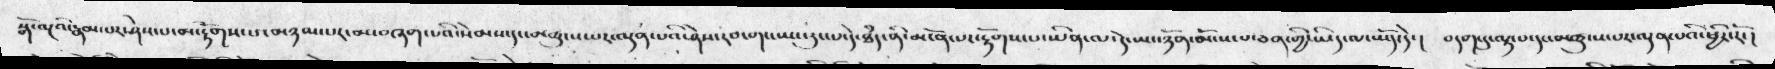སྒོ་ལྔའི་རྣམ་པར་ཤེས་པ་མ་རྟོགས་པ་མཉམ་པར་མ་བཞག་པའི་སེམས་དང་མཚུངས་པར་ལྡན་པའི་ཤེས་རབ་གང་ཡང་རུང་པ་དེ་ཐཾད་ནི་མངོན་པར་རྟོགས་པ་ཡིན་ལ་དེ་ཡང་ཉོན་མོངས་པ་ཅན་གྱི་ཡིད་ལ་ཡོད་དེ་།  བདག་དུ་ལྟ་བ་དང་མཚུངས་པར་ལྡན་པའི་ཕྱིར་རོ་།
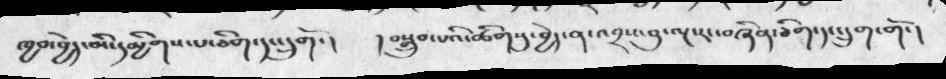ཁྱབ་བྱེད་མི་དམྱིགས་པ་ཅིག་དང་དྲུགོ་།  ། བསྒྲུབ་པའི་ཚོགསུ་བྱེད་ན་འབྲས་བུ་ལྔ་རང་བཞིན་ཅིག་དང་དྲུག་གོ་།
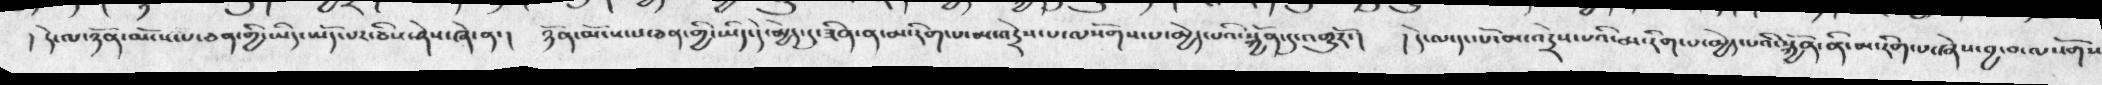། དེ་ལ་ཉོན་མོངས་པ་ཅན་གྱི་ཡིད་ཡོད་པར་ཅིས་ཤེས་ཞེ་ན་།  ཉོན་མོངས་པ་ཅན་གྱི་ཡིད་དེ་མྱེད་དུ་ཟིན་ན་མ་རིག་པ་མ་འདྲེས་པ་ལསོགས་པ་མྱེད་པའི་སྐྱོན་དུ་འགྱུརོ་།  ། དེ་ལ་དང་པོ་མ་འདྲེས་པའི་མ་རིག་པ་མྱེད་པའི་སྐྱོན་ནི་མ་རིག་པ་ཞེས་བྱ་བ་ལསོགས
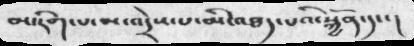མ་རིག་པ་མ་འདྲེས་པ་མི་འཐད་པའི་སྐྱོན་དང་་།
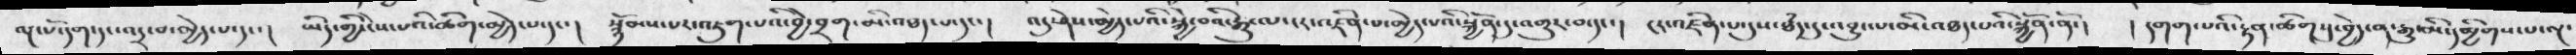ལྔ་པོ་དག་དང་འདྲ་བ་མྱེད་པ་དང་།   ཡིད་གྱི་ངེས་པའི་ཚིག་མྱེད་པ་དང་།   སྙོམས་པར་འཇུག་པའི་བྱེ་བྲག་མི་འཐད་པ་དང་།   འདུ་ཤེས་མྱེད་པའི་སྐྱེ་བའི་རྒྱུ་ལ་ངར་འཛིན་པ་མྱེད་པའི་སྐྱོན་དུ་འགྱུར་བ་དང་།   ངར་འཛིན་པ་དུས་ཐཾད་དུ་འབྱུང་པ་མི་འཐད་པའི་སྐྱོན་ནོ་།   ། དགག་པའི་རྟན་ཚིག་དུ་བྱེད་ན་རྒྱུ་མི་དམྱིགས་པ་ལྔ་
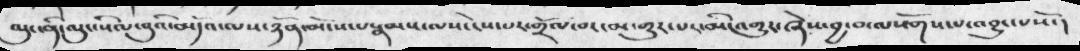ལུང་ནི་ལུང་སིལ་བུའི་མདོའ་ལས་ཉོན་མོངས་པ་རྣམས་ལས་ངེས་པར་གྲོལ་བར་མ་གྱུར་པར་མི་འགྱུར་ཞེས་བྱ་བ་ལསོགས་པ་འབྱུང་པསོ་།
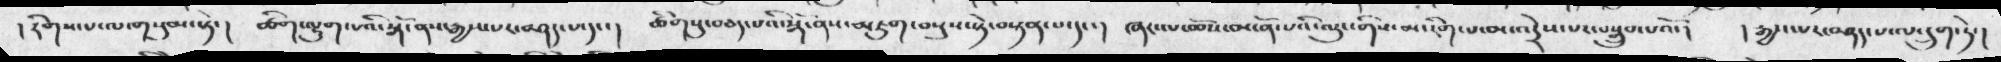།  རིགས་པ་ལ་གསུམ་ཏེ་།  ཚིག་ལྷུག་པའི་སྒོ་ནས་རྒྱས་པར་བཤད་པ་དང་།  ཚིགསུ་བཅད་པའི་སྒོ་ནས་མཇུག་བསུས་སྟེ་བསྟན་པ་དང་།  ཞར་ལ་ཆོས་མངོན་པའི་ལུང་གིས་མ་རིག་པ་མ་འདྲེས་པར་བསྒྲུབ་པའོ་།  ། རྒྱས་པར་བཤད་པ་ལ་དྲུག་ཏེ་།
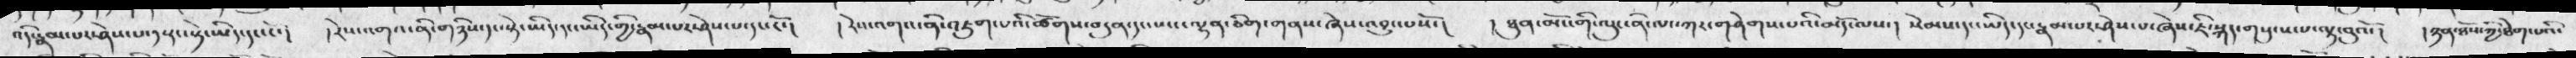འདི་རྣམ་པར་ཤེས་པ་ད་རང་སྟེ་ཡིད་དང་ངོ་།  ། རེས་འགའ་ནི་གཉིས་དང་སྟེ་ཡིད་དང་ཡིད་གྱི་རྣམ་པར་ཤེས་པ་དང་ངོ་།  ། རེས་འགའ་ནི་འཇུག་པའི་ཚོགས་བདུན་དང་པས་ལྷན་ཅིག་གནས་ཞེས་འབྱུང་པསོ་།   ། ཐུན་མོང་གི་ལུང་ནི་ལང་ཀར་གཤེགས་པའི་མདོ་ལས་།    སེམས་དང་ཡིད་དང་རྣམ་པར་ཤེས་པ་ཞེས་ཇི་སྐད་གསུངས་པ་ལྟ་བུའོ་།   ཉན་ཐོས་ཀྱི་ཐེག་པའི་
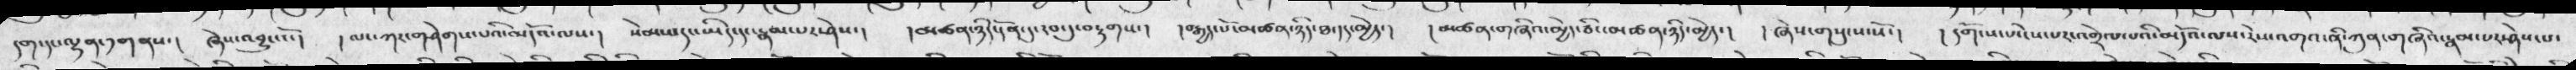དག་དང་ལྷན་༡གནས་།   ཞེས་འབྱུང་ངོ་།  ། ལང་ཀར་གཤེགས་པའི་མདོ་ལས་།   སེམས་དང་ཡིད་དང་རྣམ་པར་ཤེས་།   །མཚན་ཉིད་དོན་དུ་རབ་དུ་བརྟགས་།  ། བརྒྱད་པོ་མཚན་ཉིད་ཐ་དད་མྱེད་།   ། མཚན་གཞིའ་མྱེད་ཅིང་མཚན་ཉིད་མྱེད་།  ། ཞེས་གསུངས་སོ་།   ། དགོངས་པ་ངེས་པར་འགྲེལ་པའི་མདོའ་ལས་རེས་འགའ་ནི་ཀུན་གཞིའ་རྣམ་པར་ཤེས་པ་
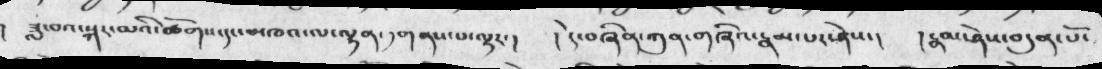ཟླ་བའ་སྐར་མའི་ཚོགས་དང་མཁའ་ལ་ལྷན་༡གནས་པ་ལྟར་།  ། དེ་བཞིན་ཀུན་གཞིའ་རྣམ་པར་ཤེས་།   ། རྣམ་ཤེས་བདུན་པོ་
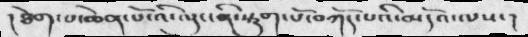། ཐེག་པ་ཆེན་པོ་འི་ལུང་ནི་སྡུག་པོ་བཀོད་པའི་མདོའ་ལས་།
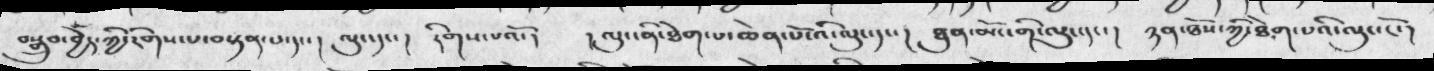བསྒྲུབ་བྱེད་ཀྱི་རིགས་པ་བསྟན་པ་དང་།  ལུང་དང་།  རིགས་པའོ་།   ། ལུང་ནི་ཐེག་པ་ཆེན་པོ་འི་ལུང་དང་།   ཐུན་མོང་གི་ལུང་དང་།   ཉས་ཐོས་ཀྱི་ཐེག་པའི་ལུང་ངོ་།
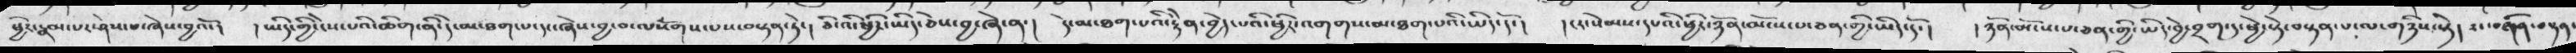ཕྱིར་རྣམ་པར་ཤེས་པ་ཞེས་བྱའོ་།  ། ཡིད་ཀྱི་ངེས་པའི་ཆིག་ནི་དེ་མ་ཐག་པ་དང་ཞེས་བྱ་བ་ལསོགས་པས་བསྟན་ཏེ་།  ཅི་འི་ཕྱིར་ཡིད་ཅེས་བྱ་ཞེ་ན་།   དེ་མ་ཐག་པའི་རྟེན་བྱེད་པའི་ཕྱིར་འགགས་མ་ཐག་པའི་ཡིད་དོ་།  ། ངར་སེམས་དཔའི་ཕྱིར་ཉོན་མོངས་པ་ཅན་གྱི་ཡོད་དོ་།   ། ཉོན་མོངས་པ་ཅན་གྱི་ཡིད་བྱེ་བྲག་དུ་ཕྱེ་སྟེ་བསྟན་པ་ལ་གཉིས་སྟེ།   རན་བཞིན་བསྟན་
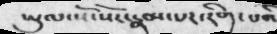ཡུལ་སོ་སོར་རྣམ་པར་རིག་པའི
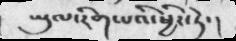ཡུལ་རིག་པའི་ཕྱིར་ཏེ་།
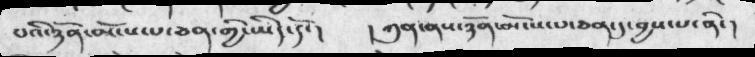པའི་ཉོན་མོངས་པ་ཅན་གྱི་ཡིད་དོ་།  ། ཀུན་ནས་ཉོན་མོངས་པ་ཅན་དུ་བྱས་པ་ནི་།
